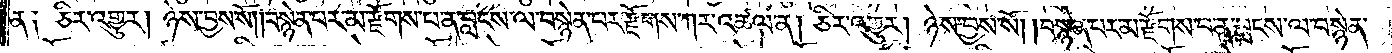ན༑ ཅིར་འགྱུར། ཉེས་བྱས་སོ། །བསྙེན་པར་མ་རྫོགས་པ་ན་བླངས་ལ་བསྙེན་པར་རྫོགས་ཀར་འཚལ་ན། ཅིར་འགྱུར། ཉེས་བྱས་སོ། །བསྙེན་པར་མ་རྫོགས་པ་ན་བླངས་ལ་བསྙེན་
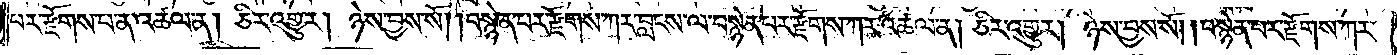པར་རྫོགས་པ་ན་འཚལ་ན། ཅིར་འགྱུར། ཉེས་བྱས་སོ། །བསྙེན་པར་རྫོགས་ཀར་བླངས་ལ་བསྙེན་པར་རྫོགས་ཀར་འཚལ་ན། ཅིར་འགྱུར། ཉེས་བྱས་སོ། །བསྙེན་པར་རྫོགས་ཀར་
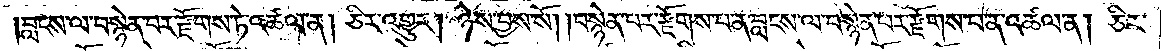།བླངས་ལ་བསྙེན་པར་རྫོགས་ཏེ་འཚལ་ན། ཅིར་འགྱུར། ཉེས་བྱས་སོ། །བསྙེན་པར་རྫོགས་པ་ན་བླངས་ལ་བསྙེན་པར་རྫོགས་པ་ན་འཚལ་ན། ཅིར་
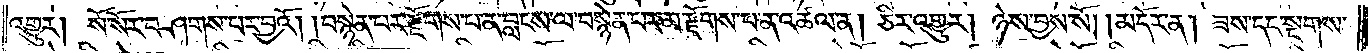འགྱུར། སོ་སོར་བཤགས་པར་བྱའོ། །བསྙེན་པར་རྫོགས་པ་ན་བླངས་ལ་བསྙེན་པར་མ་རྫོགས་པ་ན་འཚལ་ན། ཅིར་འགྱུར། ཉེས་བྱས་སོ། །མདོར་ན། ཟས་དང་སྔགས་
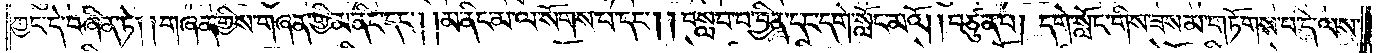ཀྱང་དེ་བཞིན་ཏེ། །གཞན་གྱིས་གཞན་གྱི་མ་ནིང་དང༌། །མ་ནིང་མ་ལ་སོགས་པ་དང༌། །བསླབ་པ་བྱིན་དང་དགེ་སློང་མའོ། །བཙུན་པ། དགེ་སློང་གིས་ཟས་མ་གཏོགས་པ་དེ་ལས་
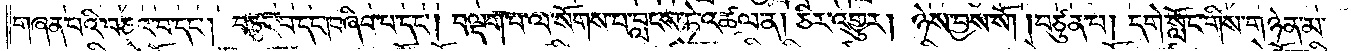གཞན་པའི་བཅའ་བ་དང༌། བཏུང་བ་དང༌།བཞིབ་པ་དང༌། བལྡག་པ་ལ་སོགས་པ་བླངས་ཏེ་འཚལ་ན། ཅིར་འགྱུར། ཉེས་བྱས་སོ། །བཙུན་པ། དགེ་སློང་གིས་གཉེན་མ་
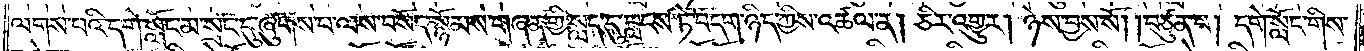ལགས་པའི་དགེ་སློང་མ་སྲང་དུ་ཞུགས་པ་ལས་བསོད་སྙོམས་གཞན་གྱི་སླད་དུ་བླངས་ཏེ་བདག་ཉིད་ཀྱིས་འཚལ་ན། ཅིར་འགྱུར། ཉེས་བྱས་སོ། །བཙུན་པ། དགེ་སློང་གིས་
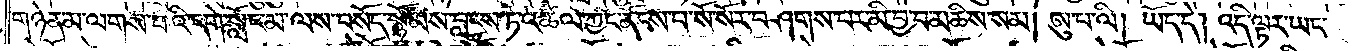གཉེན་མ་ལགས་པའི་དགེ་སློང་མ་ལས་བསོད་སྙོམས་བླངས་ཏེ་འཚལ་ཀྱང་ནོངས་པ་སོ་སོར་བཤགས་པར་མི་བྱ་བ་མཆིས་སམ། ཨུ་པ་ལི། ཡོད་དེ། འདི་ལྟར་ཡང་
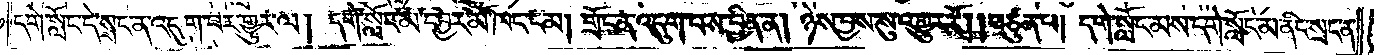དགེ་སློང་དེ་སྲང་ན་འདུག་པར་གྱུར་ལ། དགེ་སློང་མ་དབྱར་མོ་ཁང་ངམ། གྲོང་ན་འདུག་པས་བྱིན་ན། ཉེས་བྱས་སུ་འགྱུར་རོ། །བཙུན་པ། དགེ་སློང་མས་དགེ་སློང་མ་ནིང་སྲང་ན་
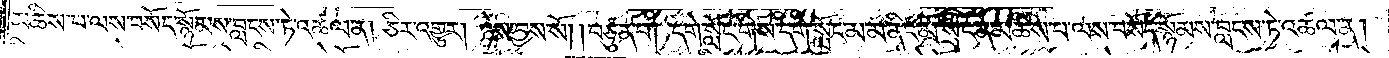མཆིས་པ་ལས་བསོད་སྙོམས་བླངས་ཏེ་འཚལ་ན། ཅིར་འགྱུར། ཉེས་བྱས་སོ། །བཙུན་པ། དགེ་སློང་གིས་དགེ་སློང་མ་མ་ནིང་མོ་སྲང་ན་མཆིས་པ་ལས་བསོད་སྙོམས་བླངས་ཏེ་འཚལ་ན།
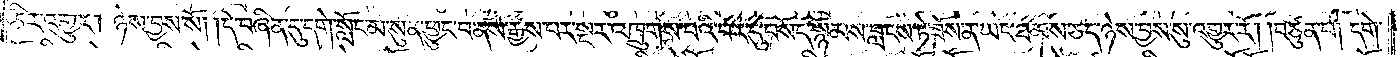ཅིར་འགྱུར། ཉེས་བྱས་སོ། །དེ་བཞིན་དུ་དགེ་སློང་མ་སུན་ཕྱུང་བ་ནས་རྒྱས་པར་སྔར་འཁྲུགས་པའི་བར་དུ་བསོད་སྙོམས་བླངས་ཏེ་ཟོས་ན་ཡང་ཐམས་ཅད་ཉེས་བྱས་སུ་འགྱུར་རོ། །བཙུན་པ། དགེ་
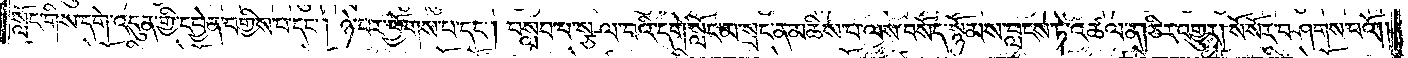སློང་གིས་དགེ་འདུན་གྱི་དབྱེན་བགྱིས་པ་དང༌། ཉེས་བར་ཕྱོགས་པ་དང༌། བསླབ་པ་སྩལ་བའི་དགེ་སློང་མ་སྲང་ན་མཆིས་པ་ལས་བསོད་སྙོམས་བླངས་ཏེ་འཚལ་ན། ཅིར་འགྱུར། སོ་སོར་བཤགས་པའོ། །
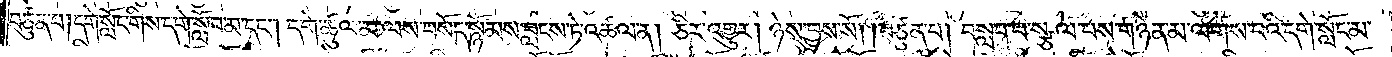བཙུན་པ། དགེ་སློང་གིས་དགེ་སློང་མ་དང༌། དགེ་ཚུལ་མ་ལས་བསོད་སྙོམས་བླངས་ཏེ་འཚལ་ན། ཅིར་འགྱུར། ཉེས་བྱས་སོ། །བཙུན་པ། བསླབ་པ་སྩལ་པས་གཉེན་མ་ལགས་པའི་དགེ་སློང་མ་
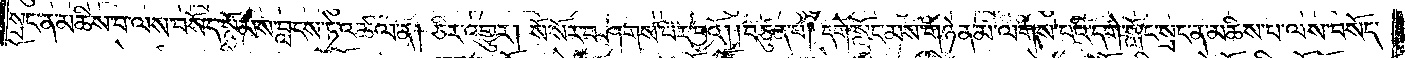སྲང་ན་མཆིས་པ་ལས་བསོད་སྙོམས་བླངས་ཏེ་འཚལ་ན། ཅིར་འགྱུར། སོ་སོར་བཤགས་པར་བྱའོ། །བཙུན་པ། དགེ་སློང་མས་གཉེན་མ་ལགས་པའི་དགེ་སློང་སྲང་ན་མཆིས་པ་ལས་བསོད་
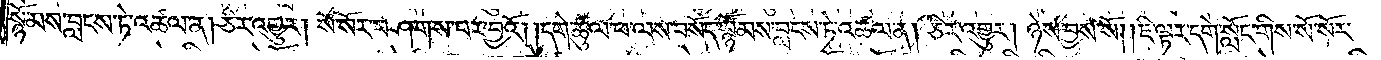སྙོམས་བླངས་ཏེ་འཚལ་ན། ཅིར་འགྱུར། སོ་སོར་བཤགས་པར་བྱའོ། །དགེ་ཚུལ་ཕ་ལས་བསོད་སྙོམས་བླངས་ཏེ་འཚལ་ན། ཅིར་འགྱུར། ཉེས་བྱས་སོ། །ཇི་ལྟར་དགེ་སློང་གིས་སོ་སོར་
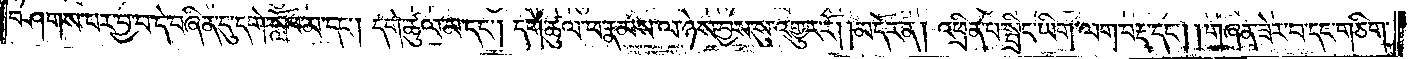བཤགས་པར་བྱ་བ་དེ་བཞིན་དུ་དགེ་སློང་མ་དང༌། དགེ་ཚུལ་མ་དང༌། དགེ་ཚུལ་ཕ་རྣམས་ལ་ཉེས་བྱས་སུ་འགྱུར་རོ།    །མདོར་ན། འཕྲིན་པ་སྤྲིང་ཡིག་ལག་བརྡ་དང༌། །གཞན་ཟེར་བ་དང་གཅིག་
